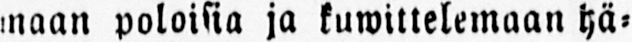maan poloisia ja kuwittelemaan hä-
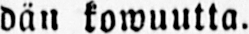dän kowuutta.
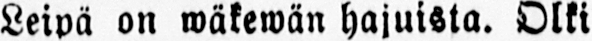Leipä on wäkewän hajuista. Olki
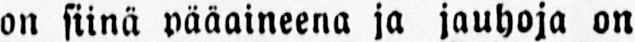on siinä pääaineena ja jauhoja on
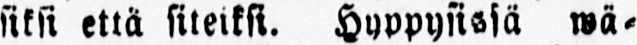siksi että siteiksi. Hyppysissä wä-
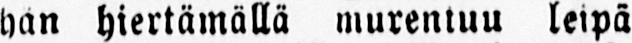han hiertämällä murentuu leipä
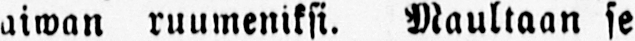aiwan ruumeniksi. Maultaan se
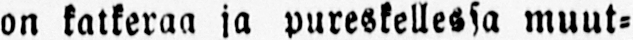on katkeraa ja pureskellessa muut-
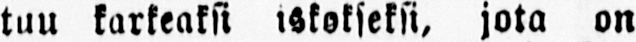tuu karkeaksi iskokseksi, jota on
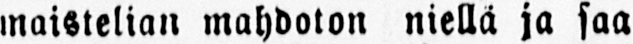maistelian mahdoton niellä ja saa
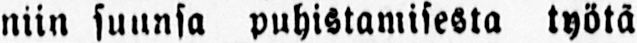niin suunsa puhistamisesta työtä
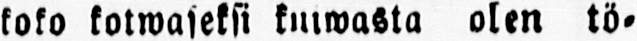koko kotwaseksi kuiwasta olen tö-
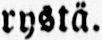rystä.
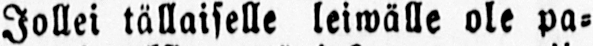Jollei tällaiselle leiwälle ole pa-
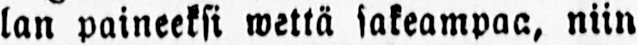lan paineeksi wettä sakeampaa, niin
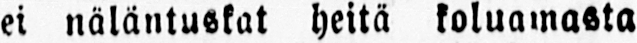ei näläntuskat heitä koluamasta
